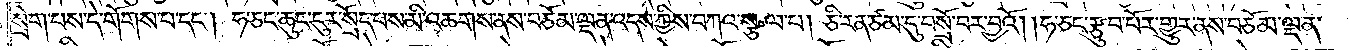སྲེག་པས་དེ་གོགས་པ་དང༌། ཧ་ཅང་ཆུང་ངུར་སྲོད་པས་མི་འཆགས་ནས་བཅོམ་ལྡན་འདས་ཀྱིས་བཀའ་སྩལ་པ། ཅི་རན་ཙམ་དུ་བསྲོ་བར་བྱའོ། །ཧ་ཅང་རྩུབ་པོར་གྱུར་ནས་བཅོམ་ལྡན་
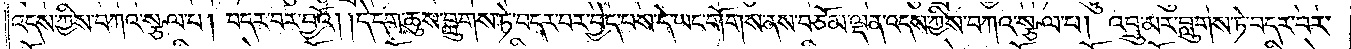འདས་ཀྱིས་བཀའ་སྩལ་པ། བདར་བར་བྱའོ། །དེ་དག་ཆུས་བླུགས་ཏེ་བདར་བར་བྱེད་པས་དེ་ཡང་གོགས་ནས་བཅོམ་ལྡན་འདས་ཀྱིས་བཀའ་སྩལ་པ། འབྲུ་མར་བླུགས་ཏེ་བདར་བར་
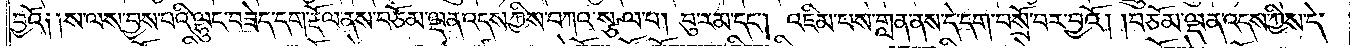བྱའོ༑ ༑ས་ལས་བྱས་པའི་ལྷུང་བཟེད་དག་རྡོལ་ནས་བཅོམ་ལྡན་འདས་ཀྱིས་བཀའ་སྩལ་པ། བུ་རམ་དང༌། འཇིམ་པས་གླན་ནས་དེ་དག་བསྲོ་བར་བྱའོ། །བཅོམ་ལྡན་འདས་ཀྱིས་དེ་
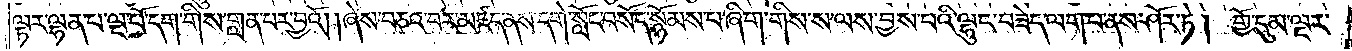ལྟར་ལྷན་པ་ལྔ་པོ་དག་གིས་གླན་པར་བྱའོ། །ཞེས་བཅའ་བར་མཛད་ནས་དགེ་སློང་བསོད་སྙོམས་པ་ཞིག་གིས་ས་ལས་བྱས་པའི་ལྷུང་བཟེད་ལག་པ་ནས་ཤོར་ཏེ། གྱོ་དུམ་ལྔར་
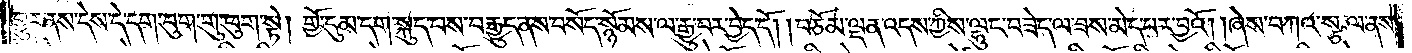གྱུར་ནས་དེས་དེ་དག་བུག་གུ་ཕུག་སྟེ། གྱོ་དུམ་དག་སྐུད་པས་བརྒྱུད་ནས་བསོད་སྙོམས་ལ་རྒྱུ་བར་བྱེད་དོ། །བཅོམ་ལྡན་འདས་ཀྱིས་ལྷུང་བཟེད་ལ་ཟས་མེད་པར་བྱའོ། །ཞེས་བཀའ་སྩལ་ནས་
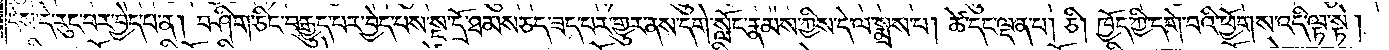དེས་དེ་རུང་བར་བྱེད་པ་ན། བཤིག་ཅིང་བརྒྱུད་པར་བྱེད་པས་སྔ་དྲོ་ཐམས་ཅད་ཟད་པར་གྱུར་ནས་དགེ་སློང་རྣམས་ཀྱིས་དེ་ལ་སྨྲས་པ། ཚེ་དང་ལྡན་པ། ཅི། ཁྱོད་ཀྱི་དགེ་བའི་ཕྱོགས་འདི་ལྟ་སྟེ།
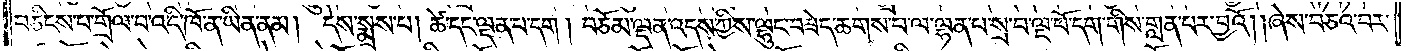བཅིངས་པ་གྲོལ་བ་འདི་ཁོ་ན་ཡིན་ནམ། དེས་སྨྲས་པ། ཚེ་དང་ལྡན་པ་དག། བཅོམ་ལྡན་འདས་ཀྱིས་ལྷུང་བཟེད་ཆགས་པ་ལ་ལྷན་པ་སྲ་བ་ལྔ་པོ་དག་གིས་གླན་པར་བྱའོ། །ཞེས་བཅའ་བར་
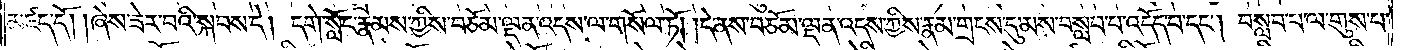མཛད་དོ། །ཞེས་ཟེར་བའི་སྐབས་དང༌། དགེ་སློང་རྣམས་ཀྱིས་བཅོམ་ལྡན་འདས་ལ་གསོལ་ཏོ། །དེ་ནས་བཅོམ་ལྡན་འདས་ཀྱིས་རྣམ་གྲངས་དུ་མས་བསླབ་པ་འདོད་པ་དང༌། བསླབ་པ་ལ་གུས་པ་
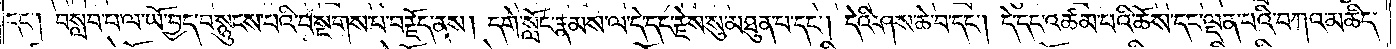དང༌། བསླབ་པ་ལ་ཡོ་བྱད་བསྙུངས་པའི་བསྔགས་པ་བརྗོད་ནས། དགེ་སློང་རྣམས་ལ་དེ་དང་རྗེས་སུ་མཐུན་པ་དང༌། དེའི་ཤས་ཆེ་བ་དང༌། དེ་དང་འཚམ་པའི་ཆོས་དང་ལྡན་པའི་བཀའ་མཆིད་
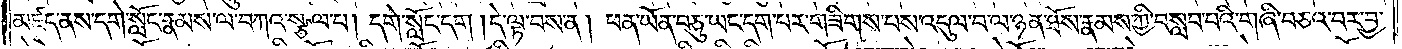མཛད་ནས་དགེ་སློང་རྣམས་ལ་བཀའ་སྩལ་པ། དགེ་སློང་དག །དེ་ལྟ་བས་ན། ཕན་ཡོན་བཅུ་ཡང་དག་པར་གཟིགས་པས་འདུལ་བ་ལ་ཉན་ཐོས་རྣམས་ཀྱི་བསླབ་པའི་གཞི་བཅའ་བར་བྱ་
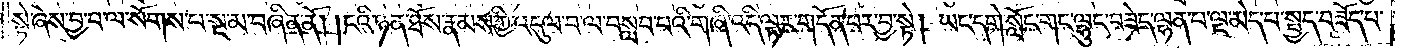སྟེ་ཞེས་བྱ་བ་ལ་སོགས་པ་སྔ་མ་བཞིན་ནོ། །ངའི་ཉན་ཐོས་རྣམས་ཀྱི་འདུལ་བ་ལ་བསླབ་པའི་གཞི་འདི་ལྟར་གདོན་པར་བྱ་སྟེ། ཡང་དགེ་སློང་གང་ལྷུང་བཟེད་ལྷན་པ་ལྔ་མེད་པ་སྤྱད་བཟོད་པ་
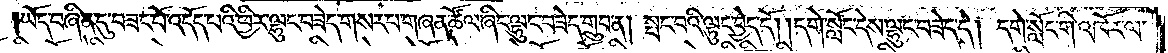ཡོད་བཞིན་དུ་བཟང་པོ་འདོད་པའི་ཕྱིར་ལྷུང་བཟེད་གསར་པ་གཞན་ཚོལ་ཞིང་ལྷུང་བཟེད་གྲུབ་ན། སྤང་བའི་ལྷུང་བྱེད་དོ། །དགེ་སློང་དེས་ལྷུང་བཟེད་དེ། དགེ་སློང་གི་འཁོར་ལ་
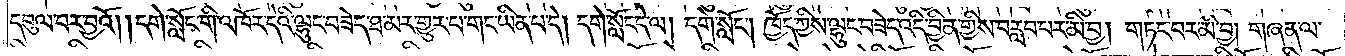དབུལ་བར་བྱའོ། །དགེ་སློང་གི་འཁོར་དེའི་ལྷུང་བཟེད་ཐ་མར་གྱུར་པ་གང་ཡིན་པ་དེ། དགེ་སློང་དེ་ལ། དགེ་སློང༌། ཁྱོད་ཀྱིས་ལྷུང་བཟེད་འདི་བྱིན་གྱིས་བརླབ་པར་མི་བྱ། གཏང་བར་མི་བྱ། གཞན་ལ་
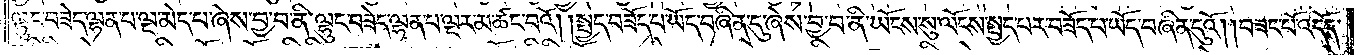ལྷུང་བཟེད་ལྷན་པ་ལྔ་མེད་པ་ཞེས་བྱ་བ་ནི་ལྷུང་བཟེད་ལྷན་པ་ལྔར་མ་ཚང་བའོ། །སྤྱད་བཟོད་པ་ཡོད་བཞིན་དུ་ཞེས་བྱ་བ་ནི་ཡོངས་སུ་ལོངས་སྤྱད་པར་བཟོད་པ་ཡོད་བཞིན་དུའོ། །བཟང་པོ་འདོད་
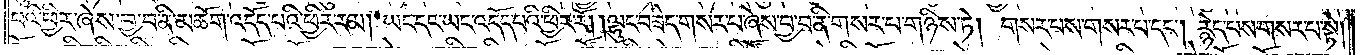པའི་ཕྱིར་ཞེས་བྱ་བ་ནི་མཆོག་འདོད་པའི་ཕྱིར་རམ། ཡང་དང་ཡང་འདོད་པའི་ཕྱིར་རོ། །ལྷུང་བཟེད་གསར་པ་ཞེས་བྱ་བ་ནི་གསར་པ་གཉིས་ཏེ། གསར་པས་གསར་པ་དང༌། རྙེད་པས་གསར་པ་སྟེ།
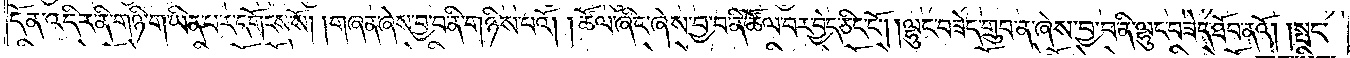དོན་འདིར་ནི་གཉི་ག་ཡིན་པར་དགོངས་སོ། །གཞན་ཞེས་བྱ་བ་ནི་གཉིས་པའོ། །ཚོལ་ཞིང་ཞེས་བྱ་བ་ནི་ཚོལ་བར་བྱེད་ཅིང་ངོ༌། །ལྷུང་བཟེད་གྲུབ་ན་ཞེས་བྱ་བ་ནི་ལྷུང་བཟེད་ཐོབ་ནའོ། །སྤང་
